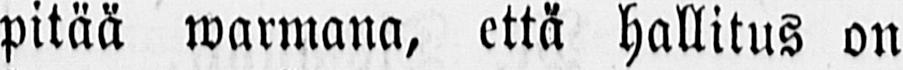pitää warmana, että hallitus on
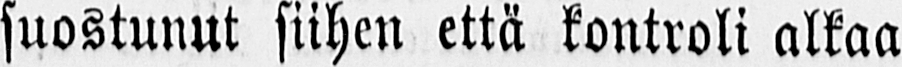suostunut siihen että kontroli alkaa
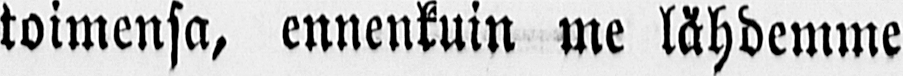toimensa, ennenkuin me lähdemme
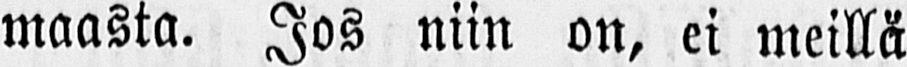maasta. Jos niin on, ei meillä
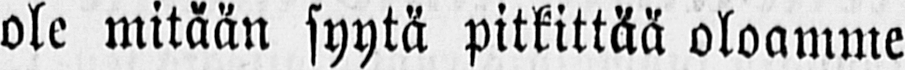ole mitään syytä pitkittää oloamme
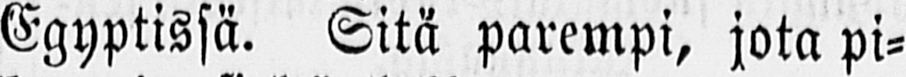Egyptissä. Sitä parempi, jota pi-
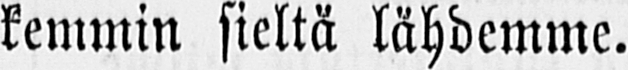kemmin sieltä lähdemme.
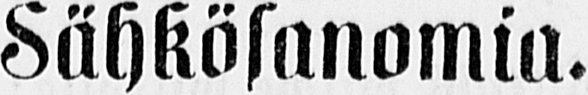Sähkösanomia.
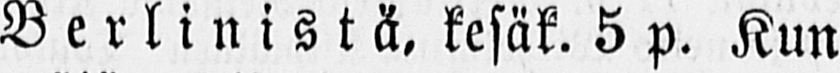Berlinistä, kesäk. 5 p. Kun
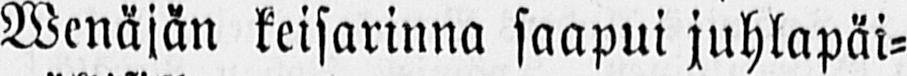Wenäjän keisarinna saapui juhlapäi-
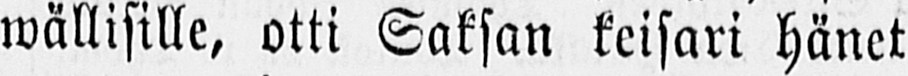wällisille, otti Saksan keisari hänet
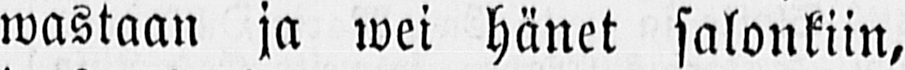wastaan ja wei hänet salonkiin,
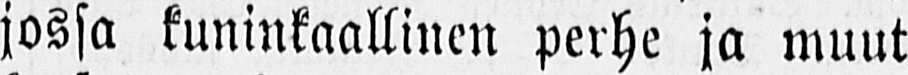jossa kuninkaallinen perhe ja muut
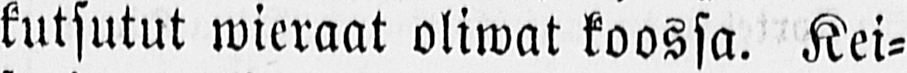kutsutut wieraat oliwat koossa. Kei-
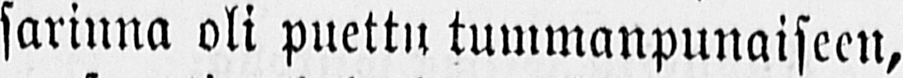sarinna oli puettu tummanpunaiseen,
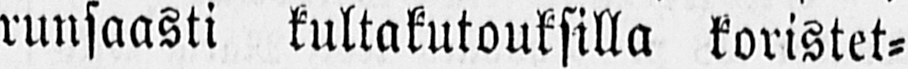runsaasti kultakutouksilla koristet-
